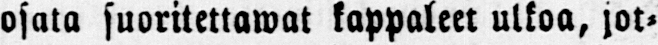osata suoritettawat kappaleet ulkoa, tot-
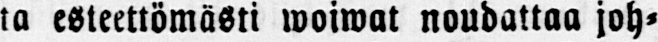ta esteettömästi woiwat noudattaa joh-
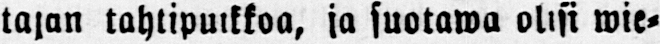tajan tahtipuikkoa, ja suotawa olisi wie-
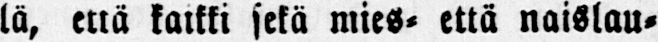lä, että kaikki sekä mies- että naislau-
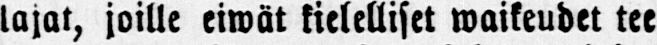lajat, joille eiwät kielelliset waikeudet tee
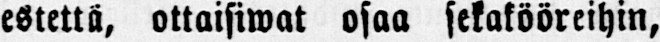estettä, ottaisiwat osaa sekakööreihin,
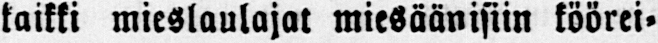kaikki mieslaulajat miesäänisiin köörei-
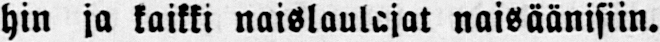hin ja kaikki naislaulajat naisäänisiin.
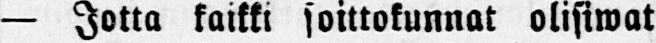— Jotta kaikki soittokunnat olisiwat
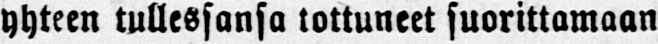yhteen tullessansa tottuneet suorittamaan
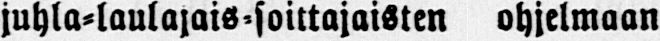juhla-laulaiais-soittajaisten ohjelmaan
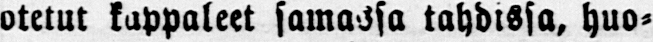otetut kappaleet samassa tahdissa, huo-
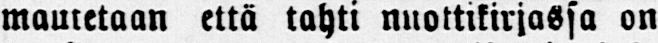mautetaan että tahti nuottikirjassa on
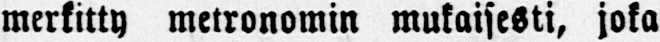merkitty metronomin mukaisesti, joka
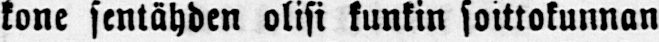kone sentähden olisi kunkin soittokunnan
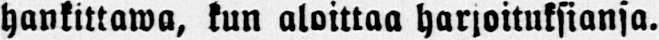hankittawa, kun aloittaa harjoituksianja.
